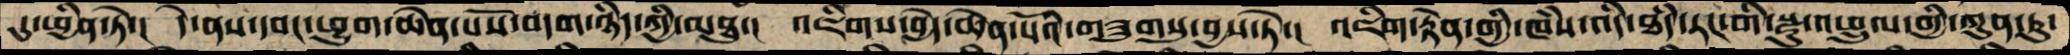དུ་ཕྱིན་ཏེ་།  དེ་ནས་དབང་ཕྱུག་ཆེན་པོས་བདག་ཉིད་ཀྱི་མཐུ་།  འཇིགས་བྱེད་ཆེན་པོའི་གཟུགསུ་བྱས་ཏེ་།  འཇིག་རྟེན་གྱི་ཁཾས་འདི་ཐདཾ་རང་གི་སྫུ་འཕྲུལ་གྱི་ཀུན་ཏུ་
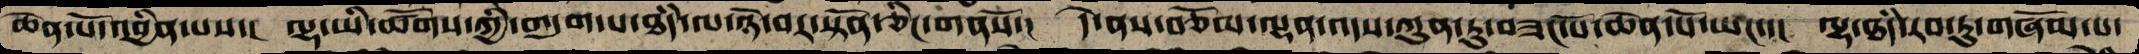ཆེན་པོ་འབྱིན་པས་།  ལྷ་ཡི་ཚོགས་ཀྱི་གདུག་པ་ཐདཾ་ལ་ཉེ་བར་སྟོན་ཅིང་གནོས་།  དེ་ནས་བཅོམ་ལྡན་འདས་ཀུན་ཏུ་བཟང་པོ་ཆེན་པོ་ཡང་་།  ལྷ་ཐདཾ་རབ་ཏུ་གཞོམ་པ་
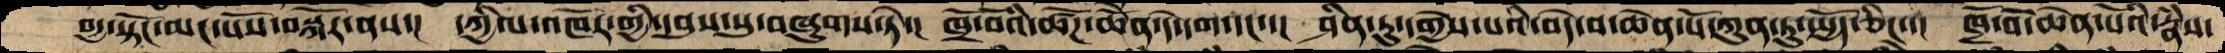བདྱ་སྟོང་མང་པོོས་བསྐོར་ནས་།  དཀྱིལ་འཁོར་གྱི་དབུས་སུ་བཞུགས་ཏེ་།  ཁྲོ་བོའི་ཚོཌ་ཆེེོན་དེ་དག་དང་་།  ཤིན་ཏུ་དགྱེས་པའི་བདེ་བ་ཆེན་པོ་ཀུན་ཏུ་སྤྱོད་ཅིང་་།  ཁྲོ་བོ་ཆེན་པོའི་རྣཾས་
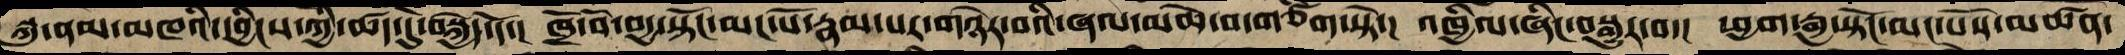སྐུ་ནམ་མཁའི་དབྱིངས་ཀྱི་ཚད་དུ་བསྐྱེད་དོ་།  ཁྲོ་བོ་བདྱ་སྟོང་མང་པོ་རྣམ་པར་གཉེར་བའི་ཞལ་མཆེ་བ་གཙིག་སྟེ་།  འཁྱིལ་ཞིང་བསྒྱུར་བ་།  ཕྱག་རྒྱ་སྟོང་མང་པོས་མཚན་
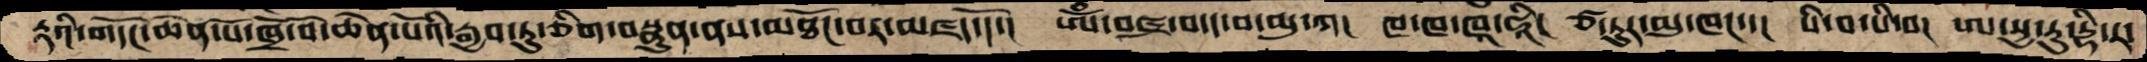རྟའི་གདོང་ཆེན་པོ་ཁྲོ་བོ་ཆེན་པོའི་རྒྱབ་ཏུ་ཅིག་བསྣུན་ནས་མཐོང་བར་མཛད་དོ་།  ཨོཾ་བཛྲ་བ་ད་བ་མུ་ཀ།  ཁ་ཁ་ཁཱ་ཧཱི།  ཙ་ཏུར་མུ་ཁང་་།  སི་བ་སི་བ།  ཨ་སྱ་རུ་དྷི་ར་
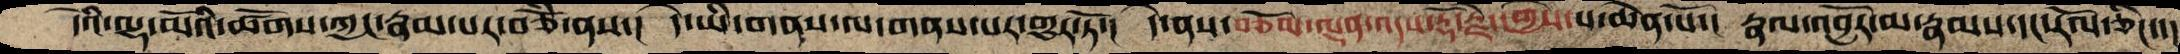དེའི་ལྷ་མོའི་ཚོགས་ཀྱང་རྣམ་པར་བཅོཾ་ནས་།  དེ་ཡི་གནས་ལ་གནས་པར་གྱུར་ཏོ་།  དེ་ནས་བཅོམ་ལྡན་འདས་རྡོ་རྗེ་དགྱེས་པ་ཆེན་པོ་།  རྣལ་འབྱོར་མ་རྣམས་དང་རོལ་ཅིང་་།
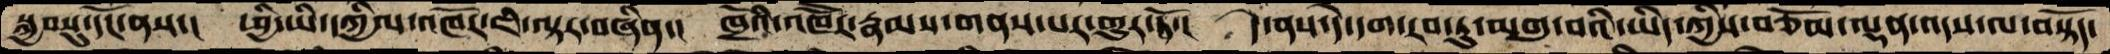སྐྱབསུ་དོང་ནས་།  ཕྱི་ཡི་དཀྱིལ་འཁོར་ཇི་ལྟར་བཞིན་།  ཁྲོའི་འཁཽར་རྣམས་གནས་པར་གྱུར་ཏོ་།  དེ་ནས་དེ་དག་རབ་ཏུ་མགུ་བའི་ཡིད་ཀྱིས་བཅོམ་ལྡན་འདས་ལ་བསྟོད་
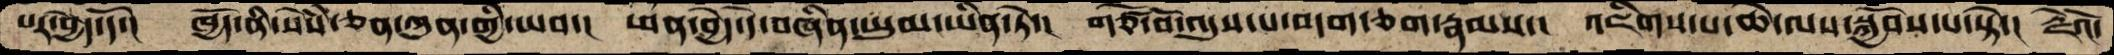པར་བྱེད་དོ་།  ཁྱོད་ནི་སེཾས་ཅན་ཀུན་གྱི་ཡབ་།  ཕན་བྱེད་དེ་བཞིན་ཡུམ་ཡིན་ཏེ་།  གཙོ་བོ་འདུས་པ་བདག་ཅག་རྣམས་།  འཇིགས་པ་ཆེ་ལས་སྐྱོབས་པ་སྟེ་།  རྗེའོ་
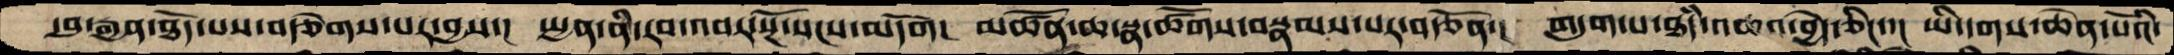དབུ་རྒྱན་ཐོད་པས་བརྩེགས་པར་བྱས་།  སྤྱན་ནི་རབ་འབར་སྔོ་སངས་མདོག།  མཚོན་ཆ་སྣ་ཚོགས་བསྣམས་པར་བརྩོན་།  གདུག་པ་ཐདཾ་འཆའ་བྱེད་ཅིང་་།  ཡི་དགས་ཆེན་པོའི་
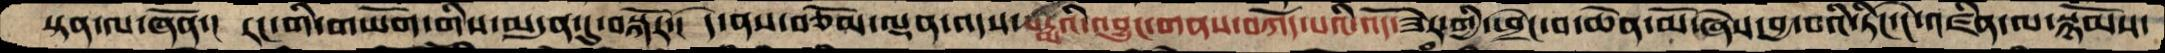སྟན་ལ་ཞོན་།  རང་གི་གཡོག་གིས་མདུན་དུ་བསྐོར་།  དེ་ནས་བཅོམ་ལྡན་འདས་པདྨའི་འབྱུང་གནས་བཀོད་པའི་འོད་ཟེར་གྱི་ཕྲེང་བ་ཆེན་མོ་ཞེས་བྱ་བའི་ཏིང་ངེ་འཛིན་ལ་སྙོམས་
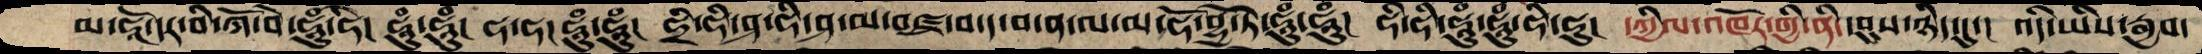མ་ཧཱོ་དར་བི་ཀོ་བེ་ཧཱུཾ་ཧི། ཧཱུཾ་ཧཱུཾ། ཧ་ཧ་ཧཱུཾ་ཧཱུཾ།  ཧྲི་ཧི་ཤ་ཧི་ཤ་མ་བཛྲ་བ་ད་བ་ན་ལ་མ་ཧོ་བྷྱོ་ཏེ་ཧཱུཾ་ཧཱུཾ།  ཧི་ཧི་ཧཱུཾ་ཧཱུཾ་ཧི་ཧུ།  དཀྱིལ་འཁོར་གྱི་ནི་དབུས་ཉིད་དུ་།  འདི་ཡིས་རྒྱབ་
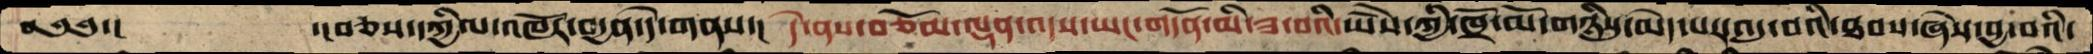༄༅་།        ་།བཅས་དཀྱིལ་འཁོར་བདྱན་དེ་གནས་།  དེ་ནས་བཅོམ་ལྡན་འདས་ཡང་གདོན་མི་ཟ་བའི་ཡཻས་ཀྱི་ཁྲོ་མོ་གཉིསུ་མེད་པར་འདུ་བའི་ཐབས་ཞེས་བྱ་བའི་
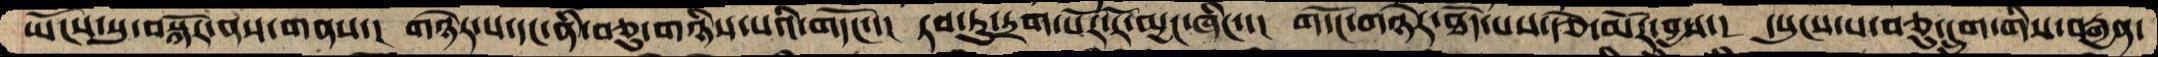ཡོངས་སུ་བསྐོར་ནས་གནས་།  གཉེར་པ་དང་ནི་བཅུ་གཉིས་གདོང་་།  རབ་ཏུ་དྲག་པོར་རོ་མྱོང་ཞིང་་།  གདོང་གཉེར་ཐོད་པས་རྩེ་མོར་བྱས་།  དཔུངས་པ་བཅུ་དྲུག་གིས་བརྒྱན་
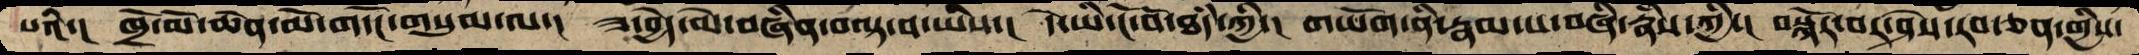པའི་།  ཁྲོ་མོ་ཆེན་མོ་གདོང་གསུམ་ལ་།  ཟ་བྱེད་མེ་བཞིན་བལྟ་བ་ཡིས་  དེ་ཡི་ངོ་བོ་ཐདཾ་ཀྱི་།  གཡོག་ནི་རྣམ་པ་བཞི་རྣཾས་ཀྱི་།  བསྐོར་བར་ཤེས་རབ་ཅན་གྱིས་
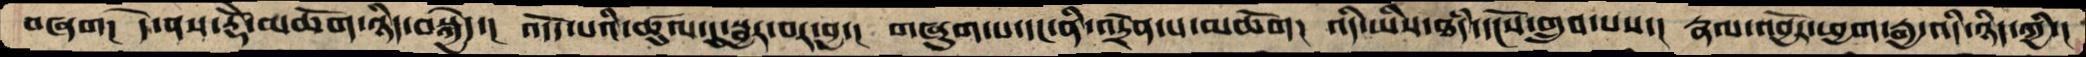བཞག།  དེ་ནས་རྡོེ་མཆོག་ཉིད་བསྐྱེད་།  འདོད་པའི་ཚུལ་དུ་སྦྱར་བར་བྱ་།  གཞུག་པ་དང་ནི་འདྲེན་པ་མཆོག།  འདི་ཡིས་ཐདཾ་དངོས་གྲུབ་པས་།  རྣལ་འབྱོར་ཕྱག་རྒྱ་འདི་ཉིད་ཀྱི་།
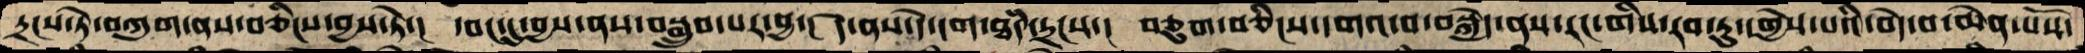དྲངས་ཏེ་བཀུག་ནས་བཅིངས་བྱས་ཏེ་།  དབང་དུ་བྱས་ནས་བསྒྲུབ་པར་བྱ་།  དེ་ནས་དེ་དག་ཐདཾ་དྲངས་།  བཅུག་བཅིངས་དགའ་བ་བསྐྱེད་ནས་རང་གིས་རབ་ཏུ་དགྱེས་པའི་བདེ་བ་ཆེན་པོས་
